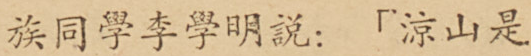族同學李學明說：「涼山是
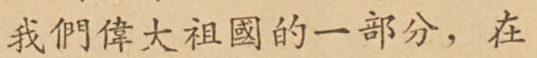我們偉大祖國的一部分，在
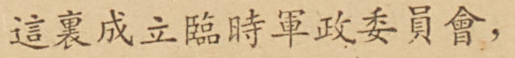這裏成立臨時軍政委員會，
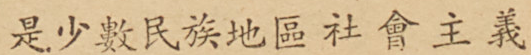是少數民族地區社會主義
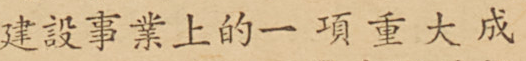建設事業上的一項重大成
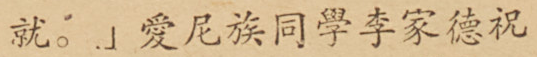就。」愛尼族同學李家德祝
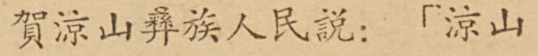賀涼山彝族人民說：「涼山
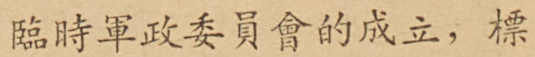臨時軍政委員會的成立，標
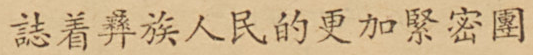誌着彝族人民的更加緊密團
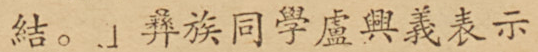結。」彝族同學盧興義表示
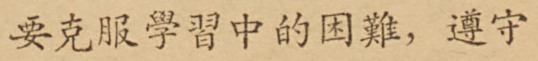要克服學習中的困難，遵守
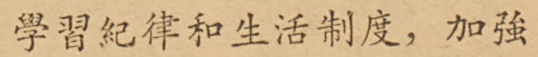學習紀律和生活制度，加強
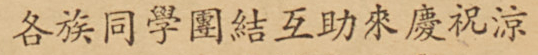各族同學團結互助來慶祝涼
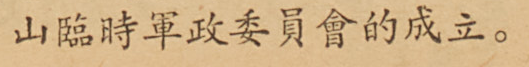山臨時軍政委員會的成立。
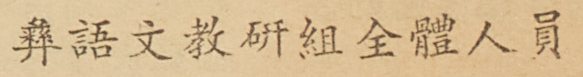彝語文教研組全體人員
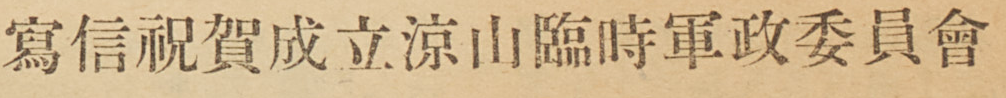寫信祝賀成立涼山臨時軍政委員會
